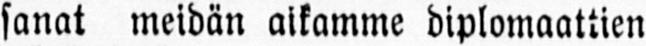sanat meidän allamme diplomaattien
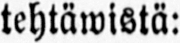tehtäwistä:
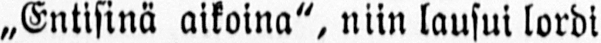„Entisinä aikoina", niin lausui lordi
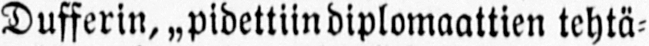Dufferin, „pidettiindiplomaattien tehtä-
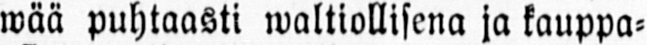wää puhtaasti waltiollisena ja kauppa-
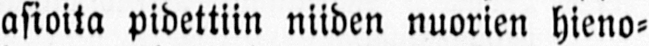asioita pidettiin niiden nuorien hieno-
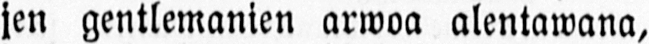jen gentlemanien arwoa alentawana,
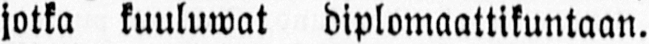jotka kuuluwat diplomaattikuntaan.
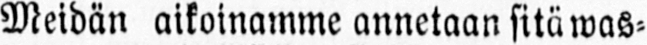Meidän aikoinamme annetaan sitä was-
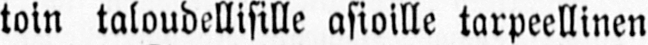toin taloudellisille asioille tarpeellinen
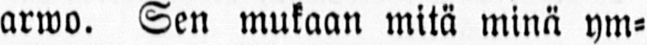arwo. Sen mukaan mitä minä ym-
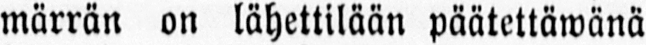märrän on lähettilään päätettäwänä
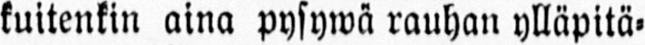kuitenkin aina pysywä rauhan ylläpitä-
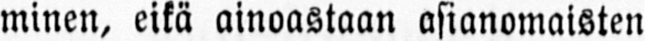minen, eikä ainoastaan asianomaisten
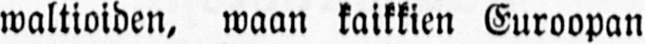waltioiden, waan kaikkien Euroopan
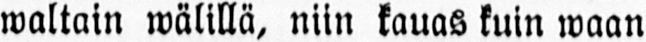waltain wälillä, niin kauas kuin waan
